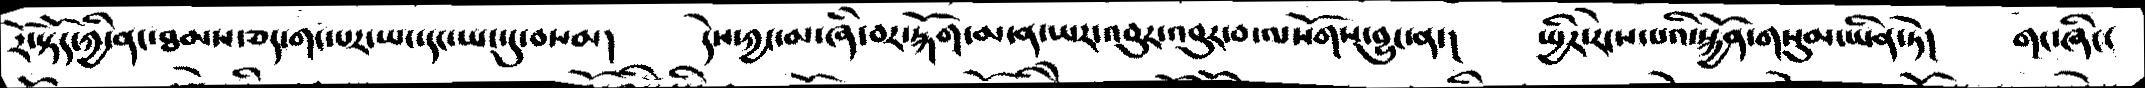རོ་སྟོད་ཀྱི་ནང་ཐམས་ཅད་གང་པར་ཡང་དང་ཡང་དུ་བསམ།   དེས་ཀྱང་མ་ཞི་བར་རྐོག་མ་ན་ཡར་འབུར་འབུར་བ་ལསོགས་བྱུང་ན་།   སྤྱིར་རེངས་པའི་སྐྱོན་གསུམ་ཡིན་ཏེ།   གང་ཞིང་
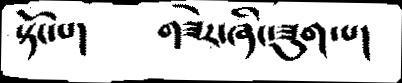སྟོང་པ།   གཟེར་ཞིང་ཟུག་པ།
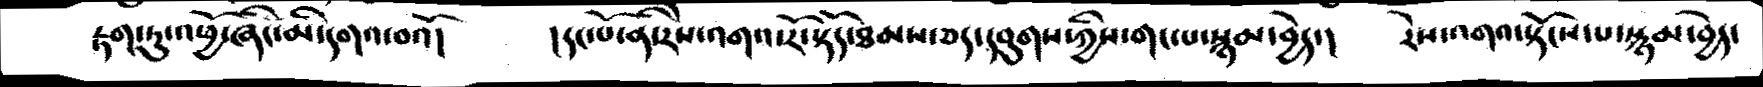རྟག་ཏུ་འཕྱོ་ཞིང་མི་དགའ་བའོ།   །དང་པོ་ནི་རེས་འགའ་རོ་སྟོད་ཐམས་ཅད་དབུགས་ཀྱིས་གང་པ་སྙམ་བྱེད་།   རེས་འགའ་སྟོངས་པ་སྙམ་བྱེད་
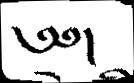༄༅།
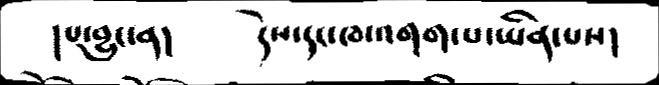།པ་བྱུང་ན།   དེས་དང་ཁ་འགག་པ་ཡིན་པས།
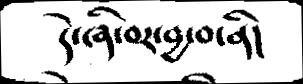དེ་ཞི་བར་བྱ་བ་ནི།
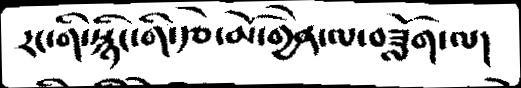རང་གི་སྙིང་གི་རྩེ་མོ་གྱེན་ལ་བཟློག་ལ།
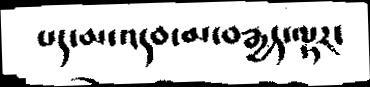པད་མ་འདབ་མ་བརྒྱད་ལྟར་
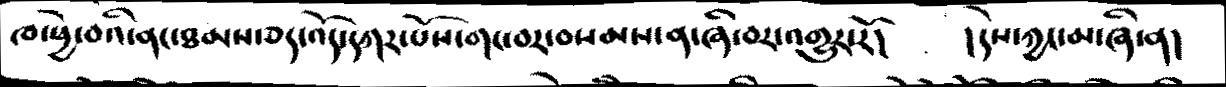ཁ་ཕྱེ་བའི་ནང་ཐམས་ཅད་འོད་དཀར་པོས་གང་བར་བསམས་ན་ཞི་བར་འགྱུར་རོ།   །དེས་ཀྱང་མ་ཞི་ན།
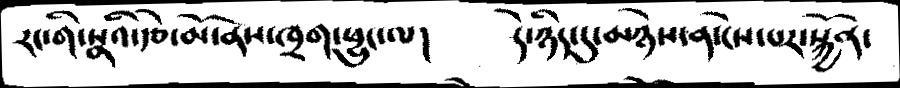རང་གི་སྣའི་རྩེ་མོ་ནས་ཁྲག་ཕྱུང་ལ།  དེ་ཉིད་དུ་མཉེས་ན་ངེས་པར་སྐྱོན་
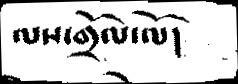ལས་གྲོལ་ལོ།
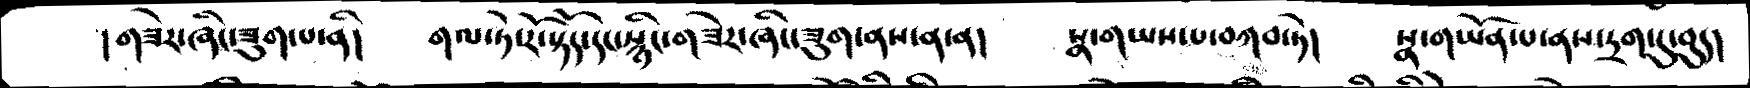།གཟེར་ཞིང་ཟུག་པ་ནི།   གལ་ཏེ་རོ་སྟོད་དང་སྙིང་གཟེར་ཞིང་ཟུག་ནས་ན་ན།  སྣ་གཡས་པ་བཀབ་ཏེ།   སྣ་གཡོན་པ་ནས་དྲག་དུ་བུད།
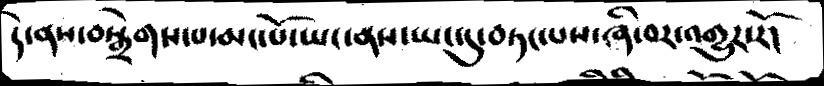དེ་ནས་བསྒྲེགས་པ་མང་པོ་ཡང་ནས་ཡང་དུ་བཏང་པས་ཞི་བར་འགྱུར་རོ།
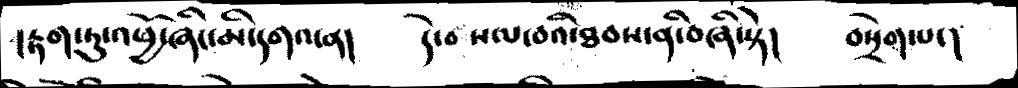།རྟག་ཏུ་འཕྱོ་ཞིང་མི་དགའ་ན།   དེ་བསལ་བའི་ཐབས་ནི་བཞི་སྟེ།   བསྲེག་པ་།
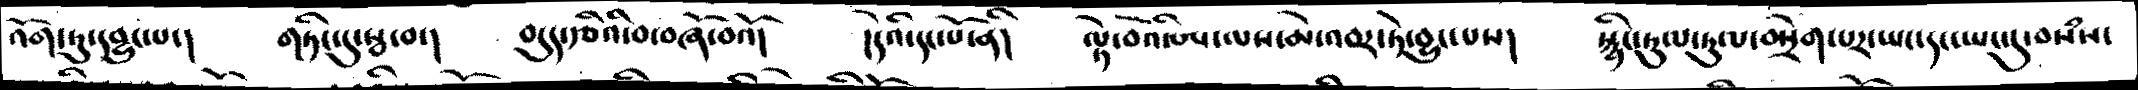འོག་ཏུ་དབྱུང་པ་།   གཏིང་དུ་སྦ་བ་།   བདུད་རྩིའི་བ་བཞོ་བའོ།   །དེའི་དང་པོ་ནི།   ལྟེ་བའི་ཨ་ལས་མེ་འབར་ཏེ་བྱུང་པས།   སྙིང་ཏུལ་ཏུལ་བསྲེག་པར་ཡང་དང་ཡང་དུ་བསཾས་
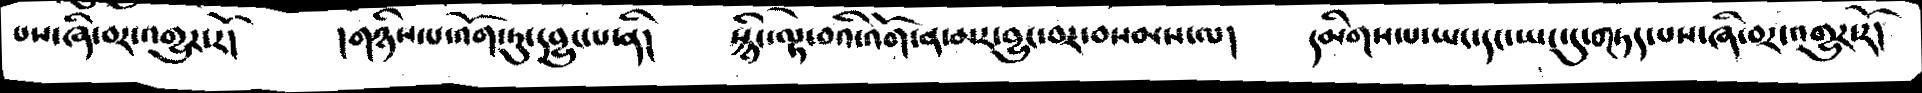པས་ཞི་བར་འགྱུར་རོ།   །གཉིས་པ་འོག་ཏུ་དབྱུང་པ་ནི།   སྙིང་ལྟེ་བའི་འོག་ན་མར་བྱུང་བར་བསམས་ལ།   དམིགས་པ་ཡང་དང་ཡང་དུ་གཏད་པས་ཞི་བར་འགྱུར་རོ།
